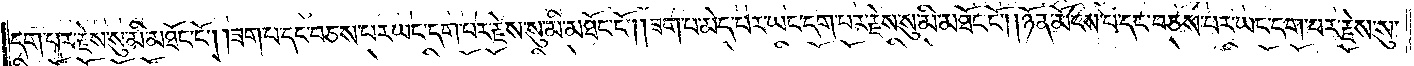དག་པར་རྗེས་སུ་མི་མཐོང་ངོ༌། །ཟག་པ་དང་བཅས་པར་ཡང་དག་པར་རྗེས་སུ་མི་མཐོང་ངོ༌། །ཟག་པ་མེད་པར་ཡང་དག་པར་རྗེས་སུ་མི་མཐོང་ངོ༌། །ཉོན་མོངས་པ་དང་བཅས་པར་ཡང་དག་པར་རྗེས་སུ་
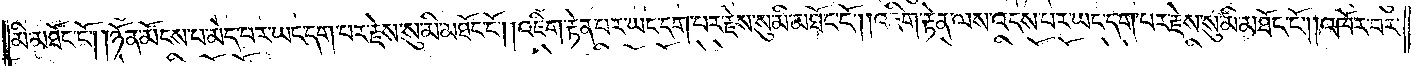མི་མཐོང་ངོ༌། །ཉོན་མོངས་པ་མེད་པར་ཡང་དག་པར་རྗེས་སུ་མི་མཐོང་ངོ༌། །འཇིག་རྟེན་པར་ཡང་དག་པར་རྗེས་སུ་མི་མཐོང་ངོ༌། །འཇིག་རྟེན་ལས་འདས་པར་ཡང་དག་པར་རྗེས་སུ་མི་མཐོང་ངོ༌། །འཁོར་བར་
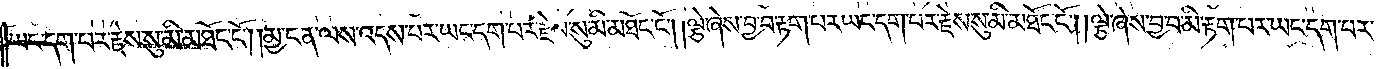ཡང་དག་པར་རྗེས་སུ་མི་མཐོང་ངོ༌། །མྱ་ངན་ལས་འདས་པར་ཡང་དག་པར་རྗེས་སུ་མི་མཐོང་ངོ༌། །ལྕེ་ཞེས་བྱ་བ་རྟག་པར་ཡང་དག་པར་རྗེས་སུ་མི་མཐོང་ངོ༌། །ལྕེ་ཞེས་བྱ་བ་མི་རྟག་པར་ཡང་དག་པར་
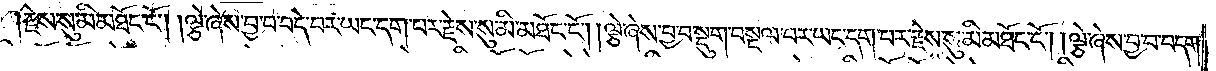རྗེས་སུ་མི་མཐོང་ངོ༌། །ལྕེ་ཞེས་བྱ་བ་བདེ་བར་ཡང་དག་པར་རྗེས་སུ་མི་མཐོང་ངོ༌། །ལྕེ་ཞེས་བྱ་བ་སྡུག་བསྔལ་བར་ཡང་དག་པར་རྗེས་སུ་མི་མཐོང་ངོ༌། །ལྕེ་ཞེས་བྱ་བ་བདག་
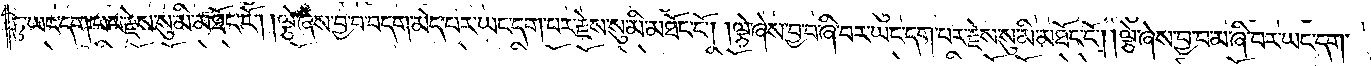ཏུ་ཡང་དག་པར་རྗེས་སུ་མི་མཐོང་ངོ༌། །ལྕེ་ཞེས་བྱ་བ་བདག་མེད་པར་ཡང་དག་པར་རྗེས་སུ་མི་མཐོང་ངོ༌། །ལྕེ་ཞེས་བྱ་བ་ཞི་བར་ཡང་དག་པར་རྗེས་སུ་མི་མཐོང་ངོ༌། །ལྕེ་ཞེས་བྱ་བ་མ་ཞི་བར་ཡང་དག་
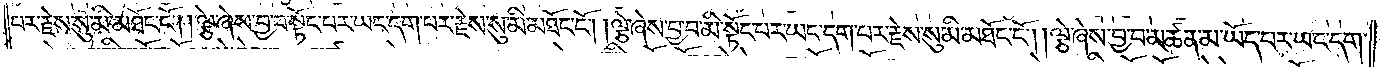པར་རྗེས་སུ་མི་མཐོང་ངོ༌། །ལྕེ་ཞེས་བྱ་བ་སྟོང་པར་ཡང་དག་པར་རྗེས་སུ་མི་མཐོང་ངོ༌། །ལྕེ་ཞེས་བྱ་བ་མི་སྟོང་པར་ཡང་དག་པར་རྗེས་སུ་མི་མཐོང་ངོ༌། །ལྕེ་ཞེས་བྱ་བ་མཚན་མ་ཡོད་པར་ཡང་དག་
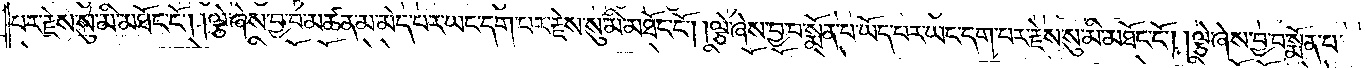པར་རྗེས་སུ་མི་མཐོང་ངོ༌། །ལྕེ་ཞེས་བྱ་བ་མཚན་མ་མེད་པར་ཡང་དག་པར་རྗེས་སུ་མི་མཐོང་ངོ༌། །ལྕེ་ཞེས་བྱ་བ་སྨོན་པ་ཡོད་པར་ཡང་དག་པར་རྗེས་སུ་མི་མཐོང་ངོ༌། །ལྕེ་ཞེས་བྱ་བ་སྨོན་པ་
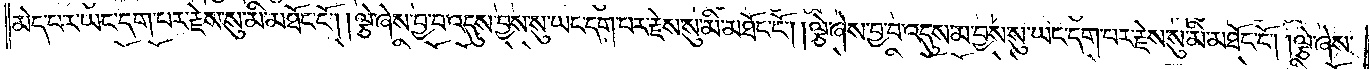མེད་པར་ཡང་དག་པར་རྗེས་སུ་མི་མཐོང་ངོ༌། །ལྕེ་ཞེས་བྱ་བ་འདུས་བྱས་སུ་ཡང་དག་པར་རྗེས་སུ་མི་མཐོང་ངོ༌། །ལྕེ་ཞེས་བྱ་བ་འདུས་མ་བྱས་སུ་ཡང་དག་པར་རྗེས་སུ་མི་མཐོང་ངོ༌། །ལྕེ་ཞེས་
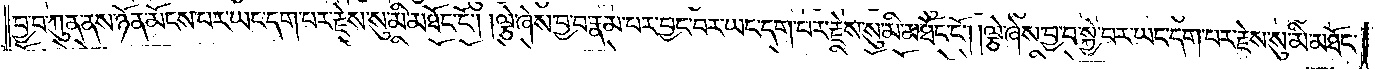བྱ་བ་ཀུན་ནས་ཉོན་མོངས་པར་ཡང་དག་པར་རྗེས་སུ་མི་མཐོང་ངོ༌། །ལྕེ་ཞེས་བྱ་བ་རྣམ་པར་བྱང་བར་ཡང་དག་པར་རྗེས་སུ་མི་མཐོང་ངོ༌། །ལྕེ་ཞེས་བྱ་བ་སྐྱེ་བར་ཡང་དག་པར་རྗེས་སུ་མི་མཐོང་
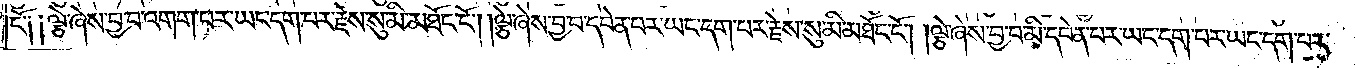ངོ༑ ༑ལྕེ་ཞེས་བྱ་བ་འགག་པར་ཡང་དག་པར་རྗེས་སུ་མི་མཐོང་ངོ༌། །ལྕེ་ཞེས་བྱ་བ་དབེན་པར་ཡང་དག་པར་རྗེས་སུ་མི་མཐོང་ངོ༌། །ལྕེ་ཞེས་བྱ་བ་མི་དབེན་པར་ཡང་དག་པར་ཡང་དག་པར་
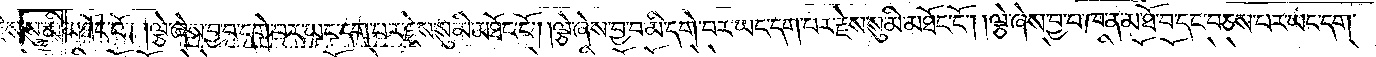རྗེས་སུ་མི་མཐོང་ངོ༌། །ལྕེ་ཞེས་བྱ་བ་དགེ་བར་ཡང་དག་པར་རྗེས་སུ་མི་མཐོང་ངོ༌། །ལྕེ་ཞེས་བྱ་བ་མི་དགེ་བར་ཡང་དག་པར་རྗེས་སུ་མི་མཐོང་ངོ༌། །ལྕེ་ཞེས་བྱ་བ་ཁ་ན་མ་ཐོ་བ་དང་བཅས་པར་ཡང་དག་
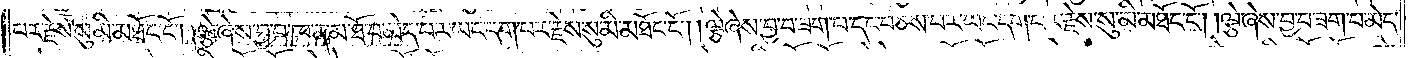པར་རྗེས་སུ་མི་མཐོང་ངོ༌། །ལྕེ་ཞེས་བྱ་བ་ཁ་ན་མ་ཐོ་བ་མེད་པར་ཡང་དག་པར་རྗེས་སུ་མི་མཐོང་ངོ༌། །ལྕེ་ཞེས་བྱ་བ་ཟག་པ་དང་བཅས་པར་ཡང་དག་པར་རྗེས་སུ་མི་མཐོང་ངོ༌། །ལྕེ་ཞེས་བྱ་བ་ཟག་པ་མེད་
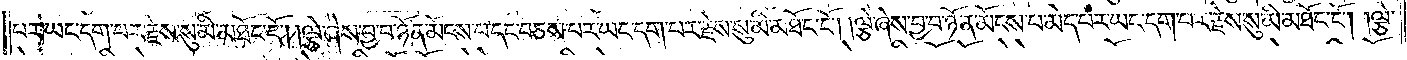པར་ཡང་དག་པར་རྗེས་སུ་མི་མཐོང་ངོ༌། །ལྕེ་ཞེས་བྱ་བ་ཉོན་མོངས་པ་དང་བཅས་པར་ཡང་དག་པར་རྗེས་སུ་མི་མཐོང་ངོ༌། །ལྕེ་ཞེས་བྱ་བ་ཉོན་མོངས་པ་མེད་པར་ཡང་དག་པར་རྗེས་སུ་མི་མཐོང་ངོ༌། །ལྕེ་
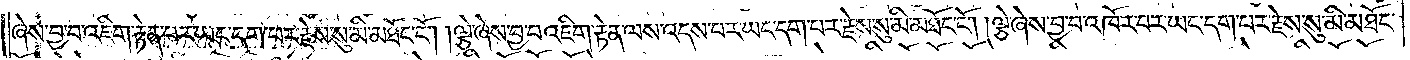ཞེས་བྱ་བ་འཇིག་རྟེན་པར་ཡང་དག་པར་རྗེས་སུ་མི་མཐོང་ངོ༌། །ལྕེ་ཞེས་བྱ་བ་འཇིག་རྟེན་ལས་འདས་པར་ཡང་དག་པར་རྗེས་སུ་མི་མཐོང་ངོ༌། །ལྕེ་ཞེས་བྱ་བ་འཁོར་བར་ཡང་དག་པར་རྗེས་སུ་མི་མཐོང་
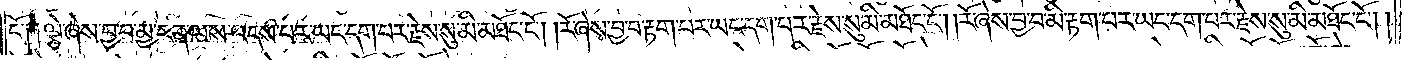ངོ༑ ༑ལྕེ་ཞེས་བྱ་བ་མྱ་ངན་ལས་འདས་པར་ཡང་དག་པར་རྗེས་སུ་མི་མཐོང་ངོ༌། །རོ་ཞེས་བྱ་བ་རྟག་པར་ཡང་དག་པར་རྗེས་སུ་མི་མཐོང་ངོ༌། །རོ་ཞེས་བྱ་བ་མི་རྟག་པར་ཡང་དག་པར་རྗེས་སུ་མི་མཐོང་ངོ༌། །
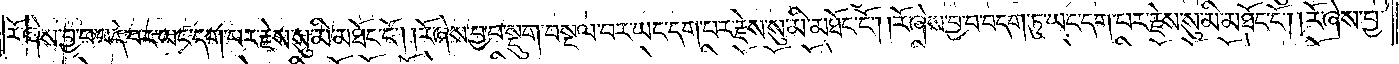རོ་ཞེས་བྱ་བ་བདེ་བར་ཡང་དག་པར་རྗེས་སུ་མི་མཐོང་ངོ༌། །རོ་ཞེས་བྱ་བ་སྡུག་བསྔལ་བར་ཡང་དག་པར་རྗེས་སུ་མི་མཐོང་ངོ༌། །རོ་ཞེས་བྱ་བ་བདག་ཏུ་ཡང་དག་པར་རྗེས་སུ་མི་མཐོང་ངོ༌། །རོ་ཞེས་བྱ་
